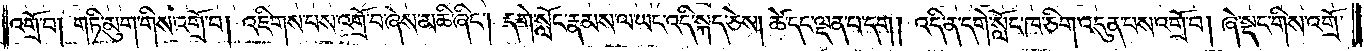འགྲོ་བ། གཏི་མུག་གིས་འགྲོ་བ། འཇིགས་པས་འགྲོ་བ་ཞེས་མཆི་ཞིང༌། དགེ་སློང་རྣམས་ལ་ཡང་འདི་སྐད་ཅེས། ཚེ་དང་ལྡན་པ་དག། འདི་ན་དགེ་སློང་ཁ་ཅིག་འདུན་པས་འགྲོ་བ། ཞེ་སྡང་གིས་འགྲོ་
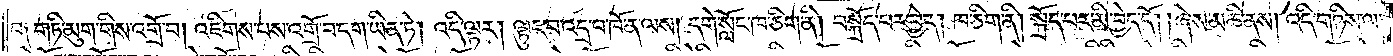བ༑  གཏི་མུག་གིས་འགྲོ་བ། འཇིགས་པས་འགྲོ་བ་དག་ཡིན་ཏེ། འདི་ལྟར། ལྟུང་བ་འདྲ་བ་ཁོ་ན་ལས། དགེ་སློང་ཁ་ཅིག་ནི། བསྐྲོད་པར་བྱེད། ཁ་ཅིག་ནི། སྐྲོད་པར་མི་བྱེད་དོ། །ཞེས་མཆི་ནས། འདི་གཉིས་ལ་
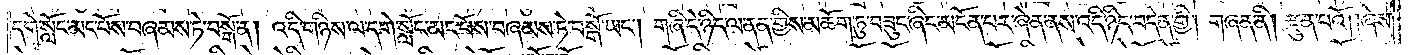དགེ་སློང་མང་པོས་བཞམས་ཏེ་བསྒོ་ན། འདི་གཉིས་ལ་དགེ་སློང་མང་པོས་བཞམས་ཏེ་བསྒོ་ཡང༌། གཞི་དེ་ཉིད་ལ་ནན་གྱིས་མཆོག་ཏུ་བཟུང་ཞིང་མངོན་པར་ཞེན་ནས་འདི་ཉིད་བདེན་གྱི། གཞན་ནི། རྫུན་པའོ། །ཞེས་
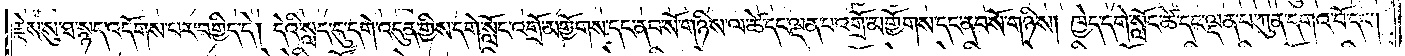རྗེས་སུ་ཐ་སྙད་འདོགས་པར་བགྱིད་དེ། དེའི་སླད་དུ་དགེ་འདུན་གྱིས་དགེ་སློང་འགྲོ་མགྱོགས་དང་ནབ་སོ་གཉིས་ལ་ཚེ་དང་ལྡན་པ་འགྲོ་མགྱོགས་དང་ནབ་སོ་གཉིས། ཁྱེད་དགེ་སློང་ཚེ་དང་ལྡན་པ་ཀུན་དགའ་བོ་དང༌།
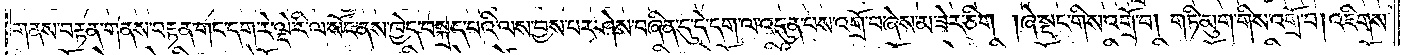གནས་བརྟན་གནས་བརྟན་གང་དག་རེ་ལྡེ་རི་ལ་སོང་ནས་ཁྱེད་བསྐྲད་པའི་ལས་བྱས་པར་ཤེས་བཞིན་དུ་དེ་དག་ལ་འདུན་པས་འགྲོ་བ་ཞེས་མ་ཟེར་ཅིག །ཞེ་སྡང་གིས་འགྲོ་བ། གཏི་མུག་གིས་འགྲོ་བ། འཇིགས་
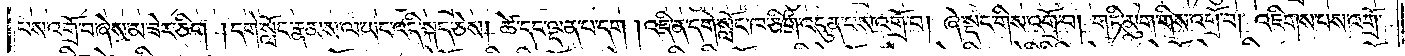པས་འགྲོ་བ་ཞེས་མ་ཟེར་ཅིག །དགེ་སློང་རྣམས་ལ་ཡང་འདི་སྐད་ཅེས། ཚེ་དང་ལྡན་པ་དག །འདི་ན་དགེ་སློང་ཁ་ཅིག་འདུན་པས་འགྲོ་བ། ཞེ་སྡང་གིས་འགྲོ་བ། གཏི་མུག་གིས་འགྲོ་བ། འཇིགས་པས་འགྲོ་
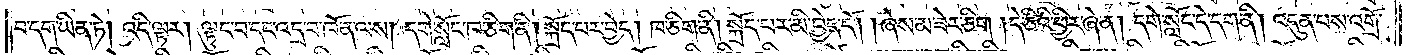བ་དག་ཡིན་ཏེ། འདི་ལྟར། ལྟུང་བ་དང་འདྲ་བ་ཁོ་ན་ལས། དགེ་སློང་ཁ་ཅིག་ནི། སྐྲོད་པར་བྱེད། ཁ་ཅིག་ནི། སྐྲོད་པར་མི་བྱེད་དོ། །ཞེས་མ་ཟེར་ཅིག །དེ་ཅིའི་ཕྱིར་ཞེ་ན། དགེ་སློང་དེ་དག་ནི། འདུན་པས་འགྲོ་
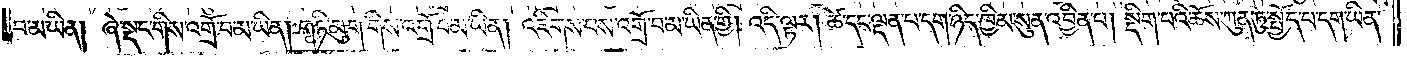བ་མ་ཡིན། ཞེ་སྡང་གིས་འགྲོ་བ་མ་ཡིན། གཏི་མུག་གིས་འགྲོ་བ་མ་ཡིན། འཇིགས་པས་འགྲོ་བ་མ་ཡིན་གྱི། འདི་ལྟར། ཚེ་དང་ལྡན་པ་དག་ཉིད་ཁྱིམ་སུན་འབྱིན་པ། སྡིག་པའི་ཆོས་ཀུན་ཏུ་སྤྱོད་པ་དག་ཡིན་
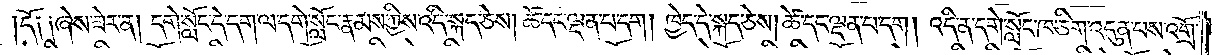དོ༑  ༏ཞེས་ཟེར། དགེ་སློང་དེ་དག་ལ་དགེ་སློང་རྣམས་ཀྱིས་འདི་སྐད་ཅེས། ཚེ་དང་ལྡན་པ་དག། ཁྱེད་དེ་སྐད་ཅེས། ཚེ་དང་ལྡན་པ་དག། འདི་ན་དགེ་སློང་ཁ་ཅིག་འདུན་པས་འགྲོ་
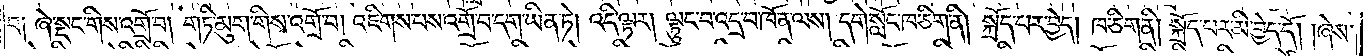བ། ཞེ་སྡང་གིས་འགྲོ་བ། གཏི་མུག་གིས་འགྲོ་བ། འཇིགས་པས་འགྲོ་བ་དག་ཡིན་ཏེ། འདི་ལྟར། ལྟུང་བ་འདྲ་བ་ཁོ་ན་ལས། དགེ་སློང་ཁ་ཅིག་ནི། སྐྲོད་པར་བྱེད། ཁ་ཅིག་ནི། སྐྲོད་པར་མི་བྱེད་དོ། །ཞེས་
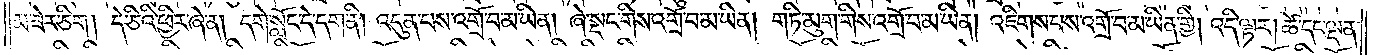མ་ཟེར་ཅིག། དེ་ཅིའི་ཕྱིར་ཞེ་ན། དགེ་སློང་དེ་དག་ནི། འདུན་པས་འགྲོ་བ་མ་ཡིན། ཞེ་སྡང་གིས་འགྲོ་བ་མ་ཡིན། གཏི་མུག་གིས་འགྲོ་བ་མ་ཡིན། འཇིགས་པས་འགྲོ་བ་མ་ཡིན་གྱི། འདི་ལྟར། ཚེ་དང་ལྡན་
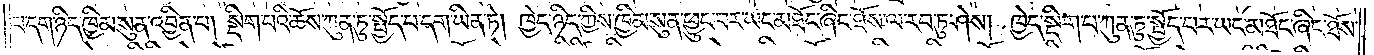བདག་ཉིད་ཁྱིམ་སུན་འབྱིན་པ། སྡིག་པའི་ཆོས་ཀུན་ཏུ་སྤྱིད་པ་དག་ཡིན་ཏེ། ཁྱེད་ཉིད་ཀྱིས་ཁྱིམ་སུན་ཕྱུང་བར་ཡང་མཐོང་ཞིང་ཐོས་རབ་ཏུ་ཤེས། ཁྱེད་སྡིག་པ་ཀུན་ཏུ་སྤྱོད་པར་ཡང་མཐོང་ཞིང་ཐོས་
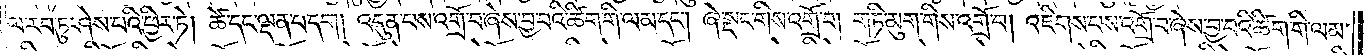ལ་རབ་ཏུ་ཤེས་པའི་ཕྱིར་ཏེ། ཚེ་དང་ལྡན་པ་དག། འདུན་པས་འགྲོ་བ་ཞེས་བྱ་བའི་ཚིག་གི་ལམ་དང། ཞེ་སྡང་གིས་འགྲོ་བ། གཏི་མུག་གིས་འགྲོ་བ། འཇིགས་པས་འགྲོ་བ་ཞེས་བྱ་བའི་ཚིག་གི་ལམ་
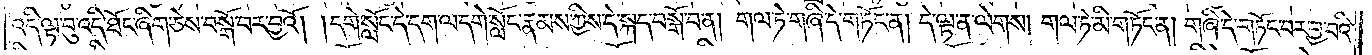འདི་ལྟ་བུ་འདི་ཐོང་ཞིག་ཅེས་བསྒོ་བར་བྱའོ། །དགེ་སློང་དེ་དག་ལ་དགེ་སློང་རྣམས་ཀྱིས་དེ་སྐད་བསྒོ་བ་ན། དེ་ལྟ་ན་ལེགས། གལ་ཏེ་མི་གཏོང་ན། གཞི་དེ་གཏོང་བར་བྱ་བའི་
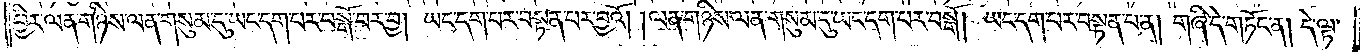ནན་གྱིས་མཆོག་ཏུ་བཟུང་ཞིང་མངོན་པར་ཞེན་ནས་འདི་ཉིད་བདེན་གྱི། གཞན་ནི། རྫུན་པའོ། །ཞེས་རྗེས་སུ་ཐ་སྙད་འདོགས་པར་བྱེད་པའི་སྐབས་དེ། དགེ་སློང་རྣམས་ཀྱིས་བཅོམ་ལྡན་འདས་ལ་
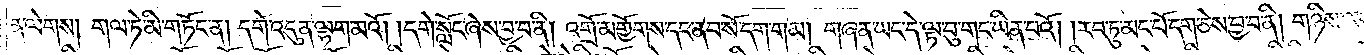གསོལ་ཏོ། །དེ་ནས་བཅོམ་ལྡན་འདས་ཀྱིས་བྱུང་བ་འདི་དང༌། གླེང་གཞི་འདི་དང༌། སྐབས་འདི་ལ་དགེ་སློང་གི་དགེ་འདུན་བསྡུ་བ་མཛད་དོ། །ཞེས་བྱ་བ་ལ་སོགས་པ་སྔ་མ་བཞིན་ནོ། །སངས་རྒྱས་བཅོམ་
